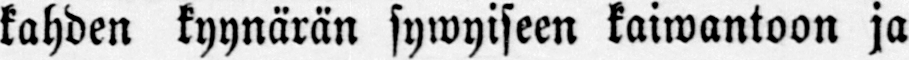kahden kyynärän sywyiseen kaiwantoon ja
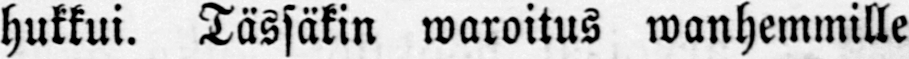hukkui. Tässäkin waroitus wanhemmille
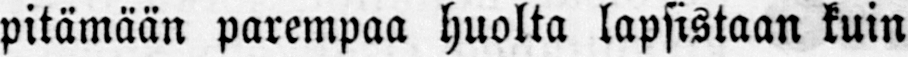pitämään parempaa huolta lapsistaan kuin
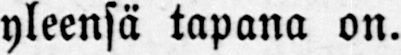yleensä tapana on.
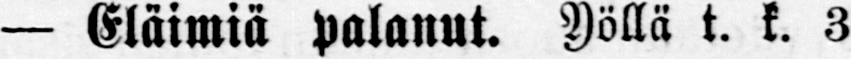— Eläimiä palanut. Yöllä t. k. 3
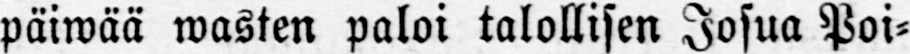päiwää wasten paloi talollisen Josua Poi-
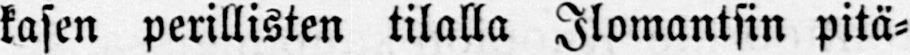kasen perillisten tilalla Ilomantsin pitä-
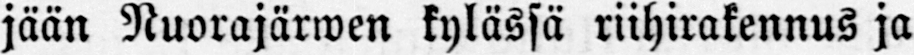jään Nuorajärwen kylässä riihirakennus ja
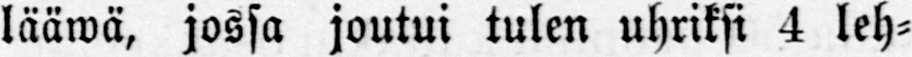lääwä, jossa joutui tulen uhriksi 4 leh-
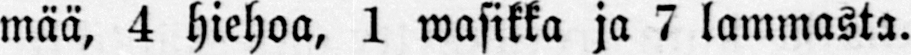mää, 4 hiehoa, 1 wasikka ja 7 lammasta.
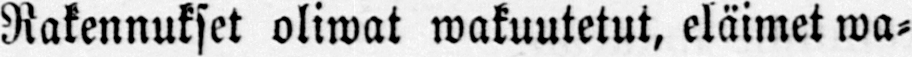Rakennukset oliwat wakuutetut, eläimet wa-
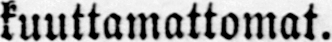kuuttamattomat.
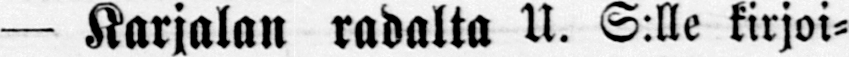— Karjalan radalta U. S:lle kirjoi-
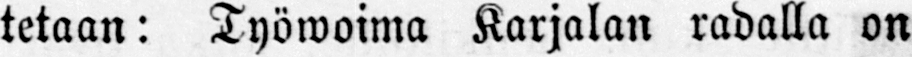tetaan: Työwoima Karjalan radalla on
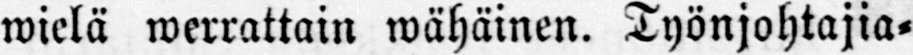wielä werrattain wähäinen. Työnjohtajia-
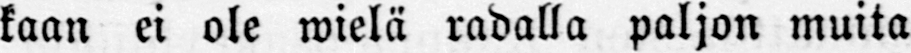kaan ei ole wielä radalla paljon muita
